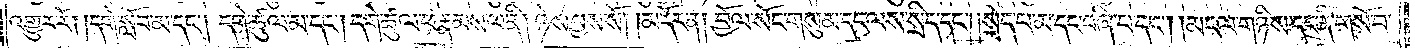འགྱུར་རོ། །དགེ་སློབ་མ་དང༌། དགེ་ཚུལ་མ་དང༌། དགེ་ཚུལ་ཕ་རྣམས་ལ་ནི། ཉེས་བྱས་སོ།    །མདོར་ན། བྱོལ་སོང་གསུམ་དང་ལས་སྲིད་དང༌། །སྲེད་པ་མ་དང་བཞི་པ་དང༌། །མངལ་གཉིས་དང་ནི་གསོ་བ་
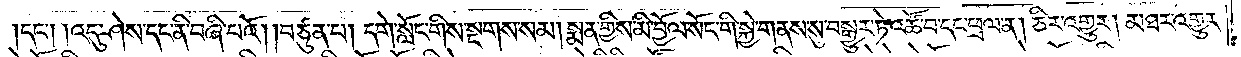དང༌། །འདུ་ཤེས་དང་ནི་བཞི་པའོ། །བཙུན་པ། དགེ་སློང་གིས་སྔགས་སམ། སྨན་གྱིས་མི་བྱོལ་སོང་གི་སྐྱེ་གནས་སུ་བསྒྱུར་ཏེ་འཚོ་བ་དང་ཕྲལ་ན། ཅིར་འགྱུར། མཐར་འགྱུར་
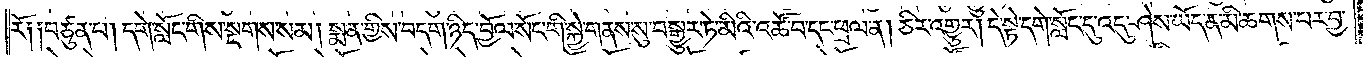རོ༑ ༑བཙུན་པ། དགེ་སློང་གིས་སྔགས་སམ། སྨན་གྱིས་བདག་ཉིད་བྱོལ་སོང་གི་སྐྱེ་གནས་སུ་བསྒྱུར་ཏེ་མིའི་འཚོ་བ་དང་ཕྲལ་ན། ཅིར་འགྱུར། དེ་སྟེ་དགེ་སློང་དུ་འདུ་ཤེས་ཡོད་ན་མི་ཆགས་པར་བྱ་
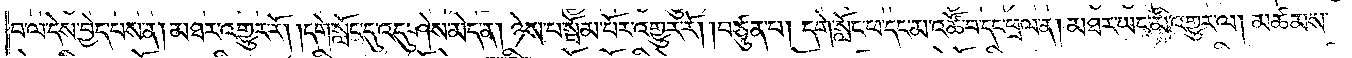བ་ལ་དེས་བྱེད་པས་ན། མཐར་འགྱུར་རོ། །དགེ་སློང་དུ་འདུ་ཤེས་མེད་ན། ཉེས་པ་སྦོམ་པོར་འགྱུར་རོ། །བཙུན་པ། དགེ་སློང་ཕ་དང་མ་འཚོ་བ་དང་ཕྲལ་ན། མཐར་ཡང་མི་འགྱུར་ལ། མཚམས་
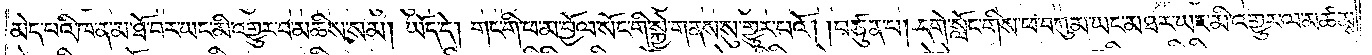མེད་པའི་ཁ་ན་མ་ཐོ་བར་ཡང་མི་འགྱུར་བ་མཆིས་སམ། ཡོད་དེ། གང་གི་ཕ་མ་བྱོལ་སོང་གི་སྐྱེ་གནས་སུ་གྱུར་པའོ། །བཙུན་པ། དགེ་སློང་གིས་ཕ་བཀུམ་ཡང་མཐར་ཡང་མི་འགྱུར་ལ་མཚམས་
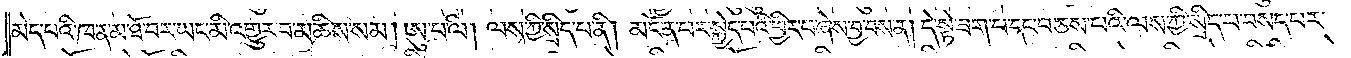མེད་པའི་ཁ་ན་མ་ཐོ་བར་ཡང་མི་འགྱུར་བ་མཆིས་སམ། ཨུ་པ་ལི། ལས་ཀྱི་སྲིད་པ་ནི། མངོན་པར་སྐྱེད་པའི་ཕྱིར་བཞེས་བྱ་བས་ན། དེ་སྟེ་ཟག་པ་དང་བཅས་པའི་ལས་ཀྱི་སྲིད་པ་བསད་པར་
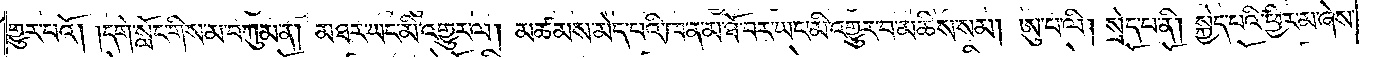གྱུར་པའོ། །དགེ་སློང་གིས་མ་བཀུམ་ན། མཐར་ཡང་མི་འགྱུར་ལ། མཚམས་མེད་པའི་ཁ་ན་མ་ཐོ་བར་ཡང་མི་འགྱུར་བ་མཆིས་སམ། ཨུ་པ་ལི། སྲེད་པ་ནི། སྐྱེད་པའི་ཕྱིར་མ་ཞེས་
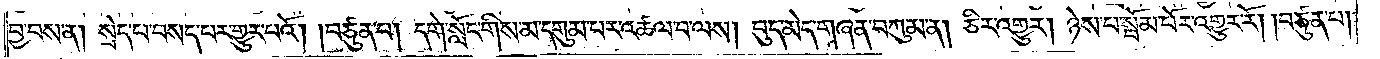བྱ་བས་ན། སྲེད་པ་བསད་པར་གྱུར་པའོ། །བཙུན་པ། དགེ་སློང་གིས་མ་དགུམ་པར་འཚལ་བ་ལས། བུད་མེད་གཞན་བཀུམ་ན། ཅིར་འགྱུར། ཉེས་པ་སྦོམ་པོར་འགྱུར་རོ། །བཙུན་པ།
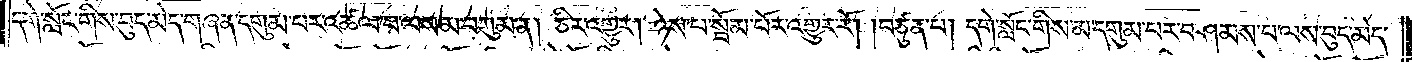དགེ་སློང་གིས་བུད་མེད་གཞན་དགུམ་པར་འཚལ་བ་ལས་མ་བཀུམ་ན། ཅིར་འགྱུར། ཉེས་པ་སྦོམ་པོར་འགྱུར་རོ། །བཙུན་པ། དགེ་སློང་གིས་མ་དགུམ་པར་བཤམས་པ་ལས་བུད་མེད་
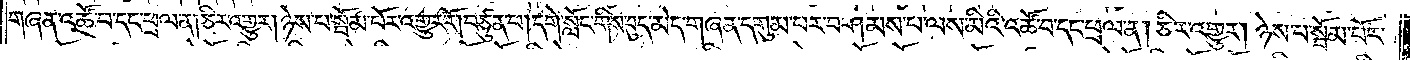གཞན་འཚོ་བ་དང་ཕྲལ་ན། ཅིར་འགྱུར། ཉེས་པ་སྦོམ་པོར་འགྱུར་རོ། བཙུན་པ།དགེ་སློང་གིས་བུད་མེད་གཞན་དགུམ་པར་བཤམས་པ་ལས་མིའི་འཚོ་བ་དང་ཕྲལ་ན། ཅིར་འགྱུར། ཉེས་པ་སྦོམ་པོར་
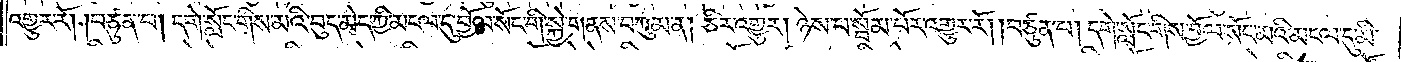འགྱུར་རོ། །བཙུན་པ། དགེ་སློང་གིས་མའི་བུད་མེད་ཀྱི་མངལ་དུ་བྱོལ་སོང་གི་སྐྱེ་གནས་བཀུམ་ན། ཅིར་འགྱུར། ཉེས་པ་སྦོམ་པོར་འགྱུར་རོ། །བཙུན་པ། དགེ་སློང་གིས་བྱོལ་སོང་མའི་མངལ་དུ་མི་
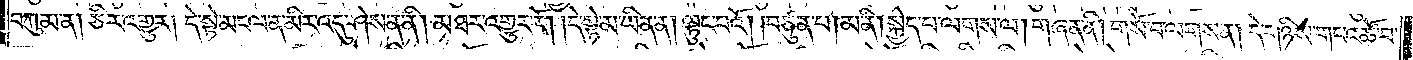བཀུམ་ན། ཅིར་འགྱུར། དེ་སྟེ་མངལ་ན་མིར་འདུ་ཤེས་ན་ནི། མཐར་འགྱུར་རོ། །དེ་སྟེ་མ་ཡིན་ན། ལྟུང་བའོ། །བཙུན་པ། མ་ནི། སྐྱེད་པ་ལགས་ལ། གཞན་ནི། གསོ་བ་ལགས་ན། དེ་གཉིས་གང་འཚོ་བ་
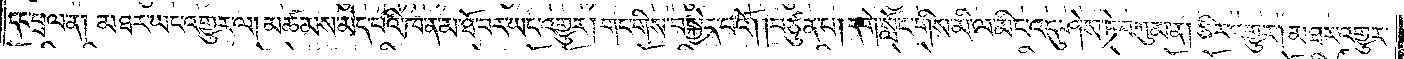དང་བྲལ་ན། མཐར་ཡང་འགྱུར་ལ། མཚམས་མེད་པའི་ཁ་ན་མ་ཐོ་བར་ཡང་འགྱུར། གང་གིས་བསྐྱེད་པའོ། །བཙུན་པ། དགེ་སློང་གིས་མི་ལ་མིང་འདུ་ཤེས་ཏེ་བཀུམ་ན། ཅིར་འགྱུར། མཐར་འགྱུར་
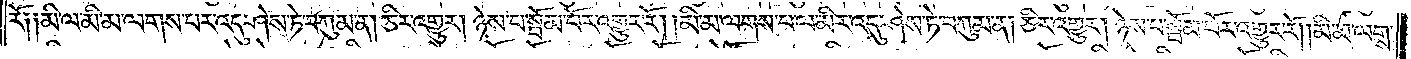རོ༑ ༑མི་ལ་མི་མ་ལགས་པར་འདུ་ཤེས་ཏེ་བཀུམ་ན། ཅིར་འགྱུར། ཉེས་པ་སྦོམ་པོར་འགྱུར་རོ། །མི་མ་ལགས་པ་ལ་མིར་འདུ་ཤེས་ཏེ་བཀུམ་ན། ཅིར་འགྱུར། ཉེས་པ་སྦོམ་པོར་འགྱུར་རོ། །མི་མ་ལགས་
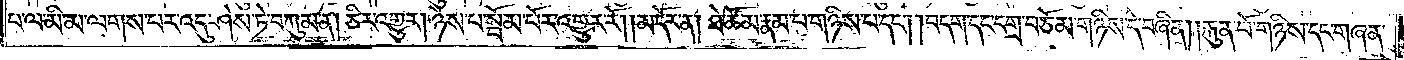པ་ལ་མི་མ་ལགས་པར་འདུ་ཤེས་ཏེ་བཀུམ་ན། ཅིར་འགྱུར། ཉེས་པ་སྦོམ་པོར་འགྱུར་རོ། །མདོར་ན། ཐེ་ཚོམ་རྣམ་པ་གཉིས་པ་དང༌། །བདག་དང་དགྲ་བཅོམ་གཉིས་དེ་བཞིན། །རྐུན་པོ་གཉིས་དང་གཞན་
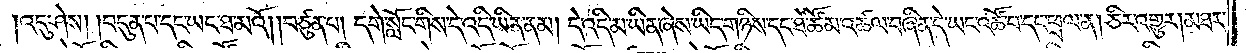།འདུ་ཤེས། །བདུན་པ་དང་ཡང་ཐ་མའོ། །བཙུན་པ། དགེ་སློང་གིས་དེ་འདི་ཡིན་ནམ། དེ་འདི་མ་ཡིན་ཞེས་ཡིད་གཉིས་དང་ཐེ་ཚོམ་འཚལ་བཞིན་དེ་ཡང་འཚོ་བ་དང་ཕྲལ་ན། ཅིར་འགྱུར། མཐར་
